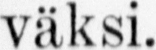väksi.
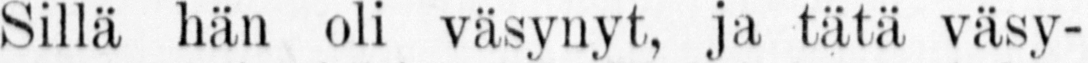Sillä hän oli väsynyt, ja tätä väsy-
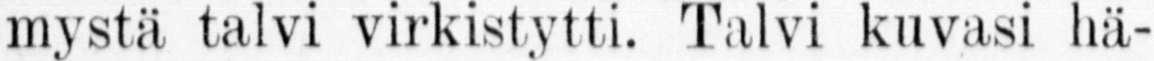mystä talvi virkistytti. Talvi kuvasi hä-
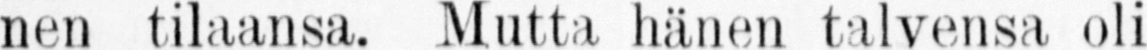nen tilaansa. Mutta h ä nen talvensa oli
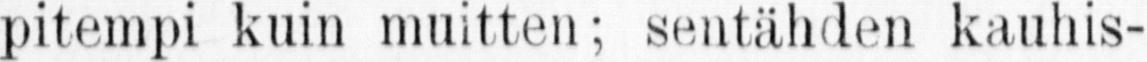pitempi kuin muitten; sentähden kauhis-
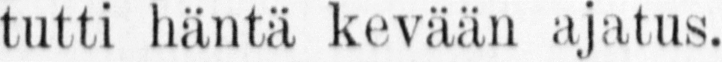tutti h änt ä kev ä ä n ajatus.
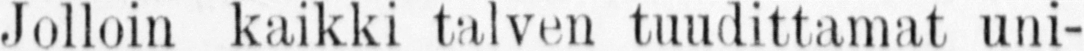Jolloin kaikki talven tuudittamat uni-
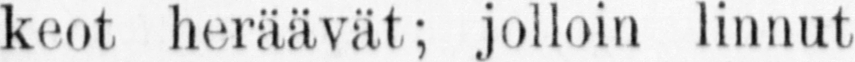keot heräävät; jolloin linnut palaavat
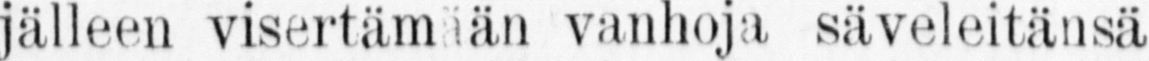jälleen visertämään vanhoja säveleitänsä
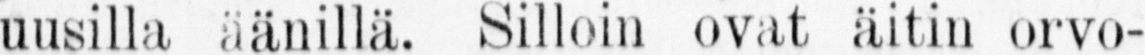uusilla äänillä. Silloin ovat äitin orvo-
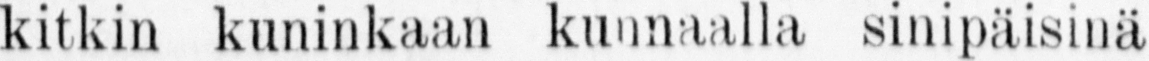kitkin kuninkaan kunnaalla sinip äisin ä
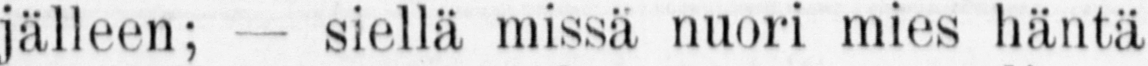jälleen; — siellä missä nuori mies häntä
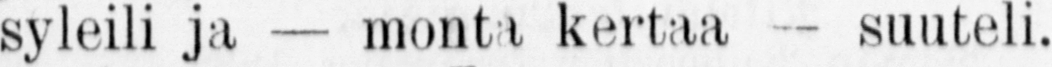syleili ja — monta kertaa — suuteli.
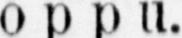Loppu.
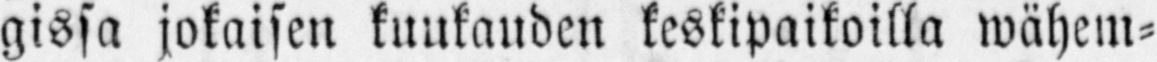gissa jokaisen kuukauden keskipaikoilla wähem-
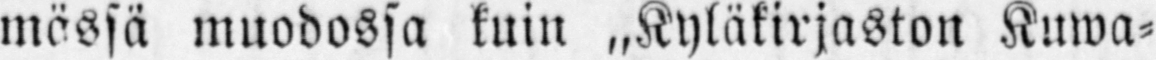mässä muodossa kuin „Kyläkirjaston Kuwa-
